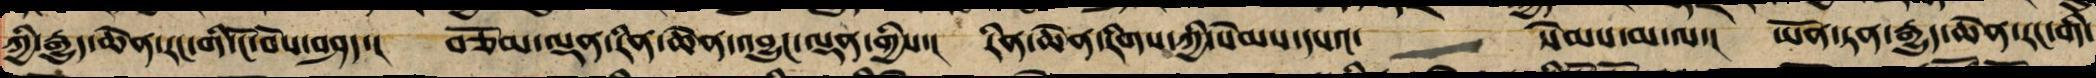ཀྱི་རྒྱུད་ཆེན་རང་གི་ངོ་བོས་བཤད། བཅོམ་ལྡན་རིན་ཆེན་འབྱུང་ལྡན་གྱིས་། རིན་ཆེན་རིགས་ཀྱི་སེམས་དཔའ་    སེམས་མ་ལ་། ཡོན་ཏན་རྒྱུད་ཆེན་རང་གི་
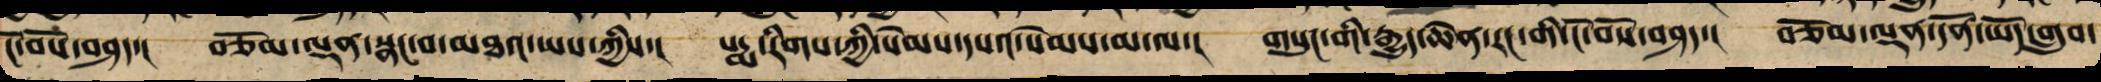ངོ་བོས་བཤད་། བཅོམ་ལྡན་སྣང་བ་མཐའ་ཡས་ཀྱིས་། པདྨའི་རིགས་ཀྱི་སེམས་དཔའ་སེམས་མ་ལ་། གསུང་གི་རྒྱུད་ཆེན་རང་གི་ངོ་བོས་བཤད་། བཅོམ་ལྡན་དོན་ཡོད་གྲུབ་
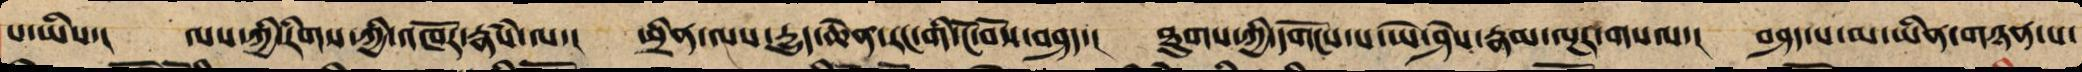པ་ཡིས་། ལས་ཀྱི་རིགས་ཀྱི་འཁོར་རྣཾས་ལ་། ཕྲིན་ལས་རྒྱུད་ཆེན་རང་གི་ངོ་བོས་བཤད་། ཐུགས་ཀྱི་དགོངས་པ་ཡེ་ཤེས་རྣམ་ལྔར་གསལ་། བཤད་པ་མ་ཡིན་མཉན་པ་
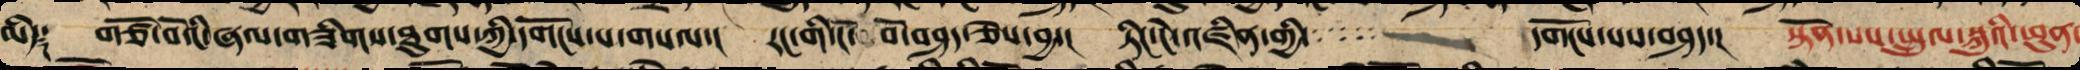མེད༑ གཙོ་བོའི་ཞལ་གཟིགས་ཐུགས་ཀྱི་དགོངས་པ་གསལ་། རང་གི་ངོ་བོ་བཤད་ཅེས་བྱ་། ཏིང་ངེ་འཛིན་གྱི་་་་་་་   དགོངས་པས་བཤད་། སྟོན་པས་སྤྲུལ་སྐུའི་ཕུན་
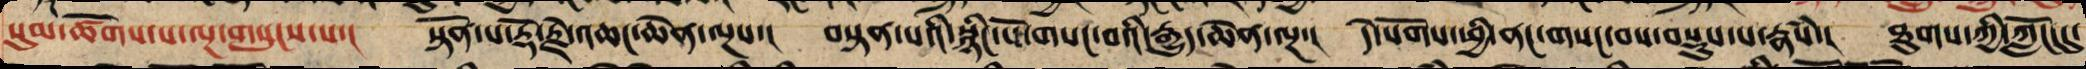སུམ་ཚོགས་པ་ལྔ་གསུངས་པ་། སྟོན་པ་རྡོ་རྗེ་འཆང་ཆེན་ལྔས་། བསྟན་པའི་སྙིང་པོ་གསང་བའི་རྒྱུད་ཆེན་ལྔ་། དེ་སོགས་ཕྱི་ནང་གསང་བས་བསྡུས་པ་རྣཾས་། ཐུགས་ཀྱི་ཀློང་དུ་
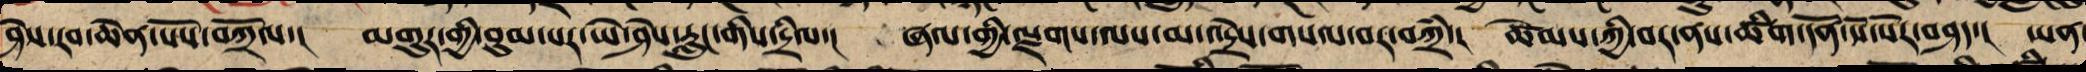ཤེས་རབ་ཆེན་པོས་བཀྲོལ་། མགུར་གྱི་བུམ་པར་ཡེ་ཤེས་རླུང་གིས་དྲིལ་། ཞལ་གྱི་ལྗགས་ལ་མ་འདྲེས་གསལ་བར་བཀྲཾ་། ཚེམས་ཀྱི་བར་ནས་ཚིག་དོན་སོ་སོར་བཤད་། ཡན་
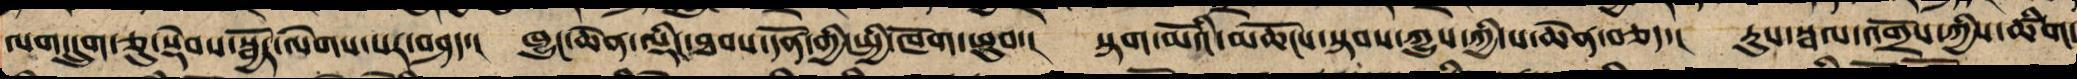ལག་དྲུག་ཅུ་སྡེབས་སྦྱོར་ལེགས་པར་བཤད་། ཁྱུང་ཆེན་ལྡིང་ཐབས་དོན་གྱི་སྤྱི་ཁོག་ཕུབ་། སྟག་མོའི་མཆོང་སྟབས་ཀྱུས་ཀྱི་ས་ཆེན་བཅད་། རུས་སྦལ་འགྲོས་ཀྱིས་ཚིག་
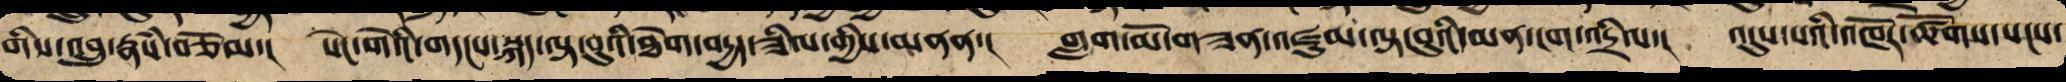གི་འབྲུ་རྣཾས་བཅོམ་། སེང་གེའི་གདངས་སྐད་ལྟ་བུའི་ཐེག་བདྱད་ཟིལ་གྱིས་མནན་། གླག་མོ་གཟན་འཇུམ་ལྟ་བུའི་མན་ངག་འདྲིལ་། འདུས་པའི་འཁོར་ཚོགས་སངས་
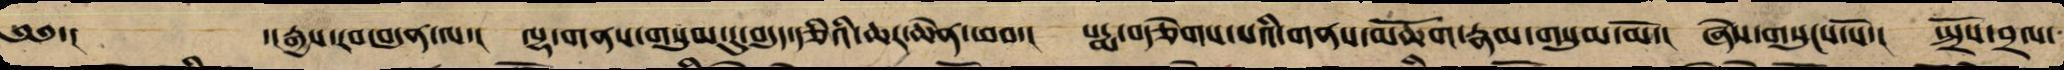༄༅་།  ་།རྒྱས་རབ་བདུན་ལ་། ལྷ་གནས་གསུམ་དུ་བདུད་རྩིའི་ཆར་ཆེན་ཕབ་། པདྨ་བརྩེགས་པའི་གནས་མཆོག་རྣམ་གསུམ་མོ་། ཞེས་གསུངས་སོ་། སྤྲོས་བྲལ་
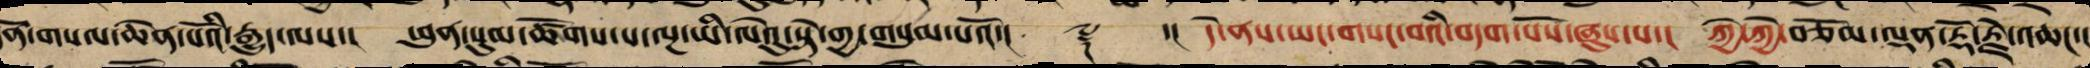དོན་གསལ་ཆེན་པོའི་རྒྱུད་ལས་། ཕུན་སུམ་ཚོགས་པ་ལྔ་ཡི་ལེའུ་སྟེ་གྱ་གསུམ་པའོ་།། ༈ ་།། དེ་ནས་ཡང་གསང་བའི་བདག་པོས་ཞུས་པ་། ཀྱེ་ཀྱེ་བཅོམ་ལྡན་རྡོ་རྗེ་འཆང་།
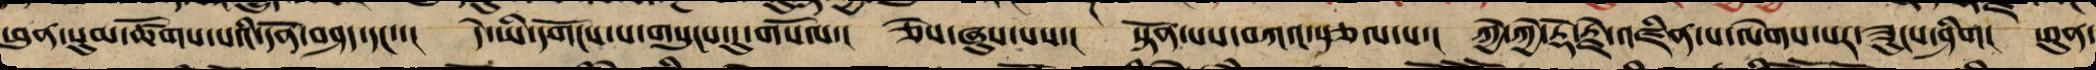ཕུན་སུམ་ཚོགས་པའི་དོན་བཤད་དང་་། དེ་ཡི་དགོས་པ་གསུང་དུ་གསོལ་། ཅེས་ཞུས་པས་། སྟོན་པས་བཀའ་སྩལ་པ་། ཀྱེ་ཀྱེ་བཅོམ་ལྡན་རྡོ་རྗེ་འཛིན་པ་ལེགས་པར་ཟུསང་ཞིག། ཕུན་
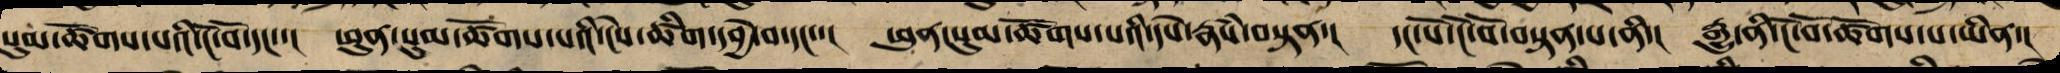སུམ་ཚོགས་པའི་ངོ་བོ་དང་་། ཕུན་སུམ་ཚོགས་པའི་ངེས་ཚིག་དབྱེ་བ་དང་་། ཕུན་སུམ་ཚོགས་པའི་དཔེ་རྣཾས་བསྟན་། དང་པོ་ངོ་བོ་བསྟན་པ་ནི་། རྒྱུ་ནི་ངོ་བོ་ཚོགས་པ་ཡིན་།
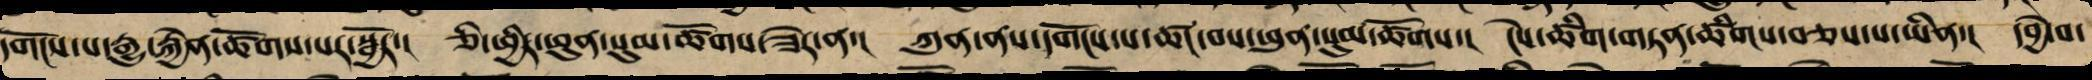དགོངས་པ་རྒྱུ་རྐྱེན་ཚོགས་པར་སྦྱོར་། ཅི་ཕྱིར་ཕུན་སུམ་ཚོགས་ཟེར་ན་། ཀུན་ནས་དགོས་པ་ཚང་བས་ཕུན་སུམ་ཚོགས་། ངེས་ཚིག་གཏན་ཚིགས་བཅས་པ་ཡིན་། དབྱེ་བ་
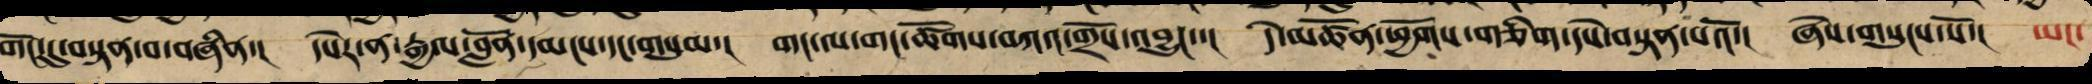གོང་དུ་བསྟན་པ་བཞིན་། དཔེར་ན་རྒྱལ་བློན་དམངས་དང་གསུམ་། གང་ལ་གང་ཚོགས་བཀའ་གྲོས་འབྱུང་་། དེ་མཚོན་ཕྱོགས་གཅིག་དཔེར་བསྟན་པའོ་། ཞེས་གསུངས་སོ་། ཡང་
